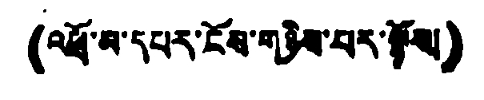(འཕྲོ་མ་དཔར་ངོས་གཉིས་པར་ལྟོས།)
